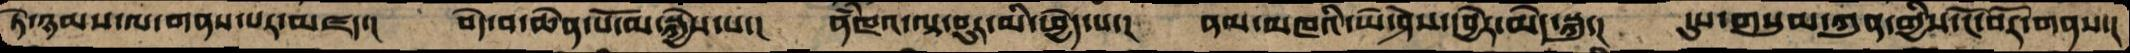ཏེ་ཉམས་ལ་གནས་པར་མཛད་།  བདེ་བ་ཆེན་པོ་མ་སྐྱེས་པ་།  ནཾཁའ་ལྟ་བུར་མི་བྱེད་པ་།  ནམ་མཁའི་ཡེ་ཤེས་དབྱེར་མེད་སྐུ་།  དུས་གསུམ་ཀུན་གྱིས་ངོ་བོར་གནས་།
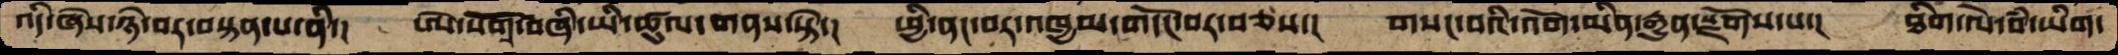འདི་ཞེས་ཉེ་བར་བསྟན་པ་ནི་།  ཨེ་སོགས་བཞི་ཡི་ཚུལ་གནས་སྟེ་། ཕྱི་ནང་བར་འཁྱམ་གདོང་བར་བཅས་། གསང་བའི་འོག་མིན་རྒྱུན་སྫོགས་པ་།  ཐིག་ལེ་བཾ་ཡིག་
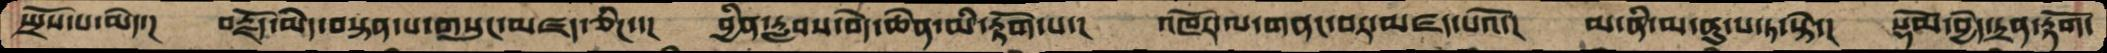སྤྲོས་པ་མེད་།  བརྗོད་མེད་བསྟན་པ་གསུང་མཛད་ཅིང་་།  བྱིན་རླབས་བདེ་ཆེན་མི་རྟོག་པ་།  འཁོར་ལ་གནང་བར་མཛད་པའོ་།  མ་ནི་མ་ནུ་ས་ཏ་སྟེ་།  སྡོམ་བྱེད་དྲན་རྟོག་
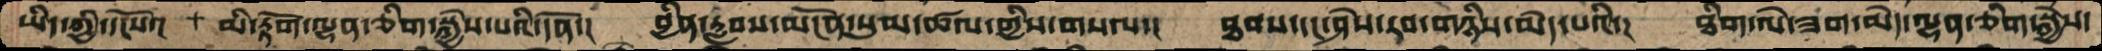ཡིད་ཀྱི་དངོས་། མི་རྟོག་ལྷན་ཅིག་སྐྱེས་པའི་དོན་།  བྱིན་རླབས་མངོན་སུམ་ཚལ་གྱིས་གསལ་།  ཐབས་དང་ཤེས་རབ་གཉིས་མེད་པའི་། ཐིག་ལེ་ཟག་མེད་ལྷན་ཅིག་སྐྱེས་
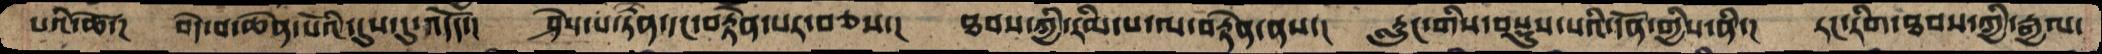པའི་ཚེ་།   བདེ་བ་ཆེན་པོའི་དུས་དུ་འདོད་།  ཤེས་པ་རྟེན་དང་བརྟེན་པར་བཅས་།  ཐབས་ཀྱི་རིམ་པ་ལ་བརྟེན་ནས་།  རླུང་གིས་བསྡུས་པའི་དོན་གྱིས་ནི་།  རང་རིག་ཐབས་ཀྱི་རྒྱལ་
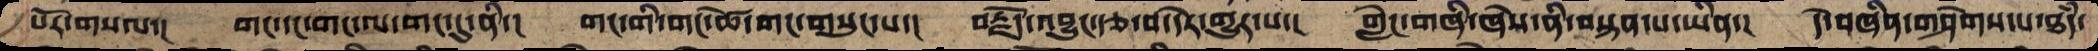པོར་གསལ་།  གང་དང་གང་ལ་གང་དུ་ནི་།  གང་གི་གང་ཚེ་གང་གསུང་པ་།  བརྗོད་འབྱུང་རྩ་བ་དེར་གྱུར་པ་།  གླེང་གཞི་ཞེས་ནི་བསྟན་པ་ཡིན་།  དེ་བཞིན་གཤེགས་པ་ཐཾད་
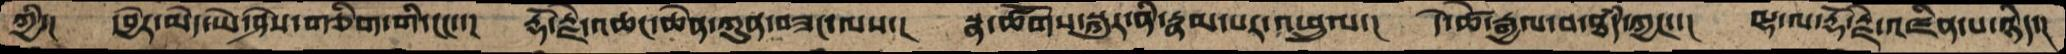ཀྱི་།  དབྱེར་མེད་ཡེ་ཤེས་གཅིག་གི་ངང་་།  རྡོ་རྗེ་འཆང་ཆེན་ཀུན་བཟང་ལས་།  སྣ་ཚོགས་སྐུར་ནི་རྣམ་པར་འཕྲུལ་།  དེ་ཚེ་རྒྱལ་བ་ཐཾད་ཀྱང་་།  ལྷ་ལ་རྡོ་རྗེ་འཛིན་པ་ཉིད་།
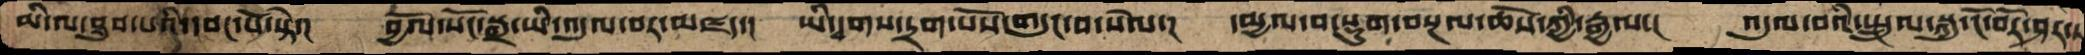མི་ལ་ཐུབ་པའི་དབང་པོ་སྟེ་།  བྱོལ་སོང་སྒྲ་ཡི་འདུལ་བར་མཛད་།  ཡི་དྭགས་དྲག་པོས་གདུང་བ་སེལ་།  དམྱལ་བ་སྡུག་བསྔལ་ཆོས་ཀྱི་རྒྱལ་།  འདུལ་བའི་སྤྲུལ་སྐུ་ངོ་བོར་ཤར་།
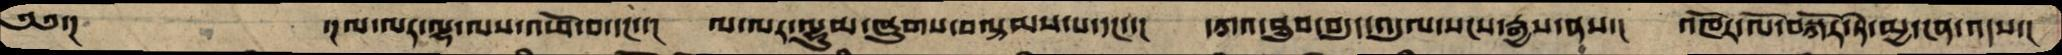༄༅་།       ་།ལ་ལར་ལྷ་ལས་འཕོ་བ་དང་་།  ལ་ལར་ལྷུམ་ཞུགས་བལྟམས་པ་དང་་།  དཀའ་ཐུབ་བདུད་འདུལ་སངས་རྒྱས་ནས་།  འཁོར་ལོ་བསྐོར་ཏེ་མྱ་ངན་འདས་།
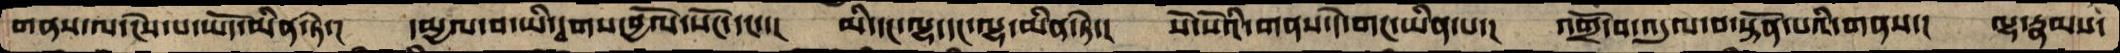གནས་ལ་ངེས་པ་ཡོད་མིན་ཏེ་།  དམྱལ་བ་ཡི་དྭགས་བྱོལ་སོང་དང་་།  མི་དང་ལྷ་དང་ལྷ་མིན་ཏེ་།  སོ་སོའི་གནས་དེ་གང་ཡིན་པ་།  འགྲོ་བ་འདུལ་བ་སྟོན་པའི་གནས་།  ལྷ་རྣམས་
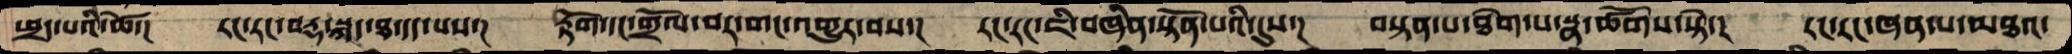ཕྲད་པའི་ཚེ་།  རང་རང་བརྡ་སྐད་ཐ་དད་པས་།  རྟོག་དང་གྲོལ་བར་གང་འགྱུར་བས་།  རང་རང་ཇི་བཞིན་སྟོན་པའི་དུས་།   བསྟན་པ་ཐེག་པ་སྣ་ཚོགས་སྟེ་།  རང་རང་ཞན་པ་མཐའ་
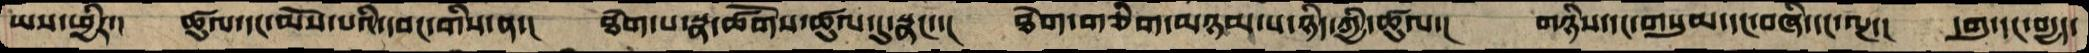ཡས་ཕྱིར་།  ཚུལ་དང་མོས་པའི་དབང་གིས་ན་།   ཐེག་པ་སྣ་ཚོགས་ཚུལ་དུ་སྣང་་།   ཐེག་གཅིག་མཉམ་པ་ཉིད་ཀྱི་ཚུལ་།   གཉིས་དང་གསུམ་དང་བཞི་དང་ལྔ་།  དགུ་དང་བདྱད་
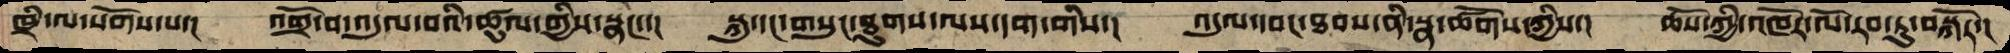ཁྲི་ལ་སོགས་པ་།   འགྲོ་བ་འདུལ་བའི་ཚུལ་གྱིས་སྣང་་།  སྐུ་དང་གསུང་ཐུགས་ལས་དག་གིས་།  འདུལ་དབང་ཐབས་ནི་སྣ་ཚོགས་ཀྱིས་།   ཆོས་ཀྱི་འཁོར་ལོ་རབ་ཏུ་བསྐོར་།
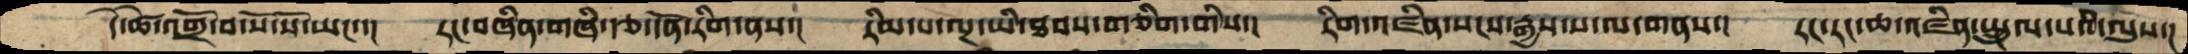དེ་ཚེ་འགྲོ་བ་སོ་སོ་ཡང་་།  རང་བཞིན་གཞི་རྩ་དོན་རིག་ནས་།  རིམ་པ་ལྔ་ཡི་ཐབས་གཅིག་གིས་།  རིག་འཛིན་སངས་རྒྱས་ས་ལ་གནས་།  རང་རང་ཆ་འཛིན་སྤྲུལ་པའི་ལུས་།
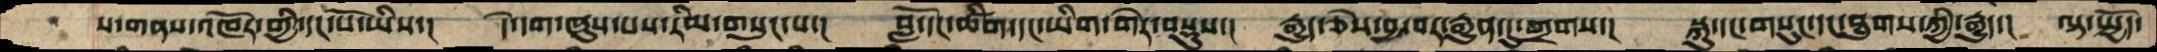ས་གནས་འཁོར་གྱི་དངོས་པོ་ཡིས་།  དེ་དག་ཞུས་པས་རིམ་གསུང་པ་།  བློ་དང་ཚིག་དང་ཡིག་གེར་བསྡུས་།  རྒྱུད་ཅེས་བྱ་བར་རྒྱུན་དུ་གྲགས་།  སྐུ་དང་གསུང་དང་ཐུགས་ཀྱི་རྒྱུད་།  ལྟ་སྤྱོད་
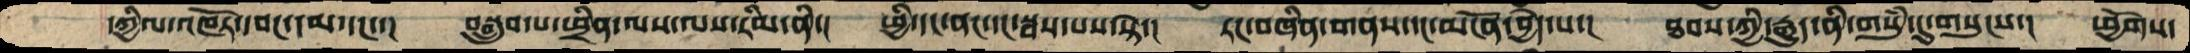དཀྱིལ་འཁོར་དབང་དམ་དང་་།  བསྒྲུབ་པ་ཕྲིན་ལས་ལས་རིམ་ནི་།  ཕྱི་དང་ནང་དང་སྦས་པས་སྟེ་།  རང་བཞིན་གནས་དང་མངོན་བྱེད་པ་།  ཐབས་ཀྱི་རྒྱུད་ནི་གསུཾ་དུ་གསུངས་།  ཕྱོགས་
